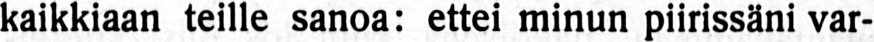kaikkiaan teille sanoa: ettei minun piirissäni var-
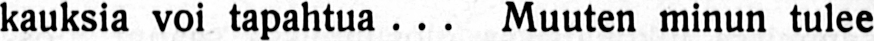kauksia voi tapahtua . . . Muuten minun tulee
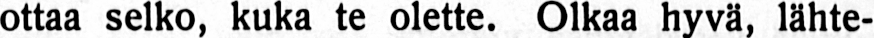ottaa selko, kuka te olette. Olkaa hyvä, lähte-
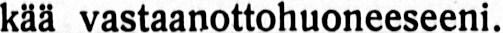kää vastaanottohuoneeseeni.
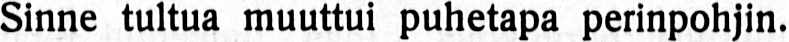Sinne tultua muuttui puhetapa perinpohjin.
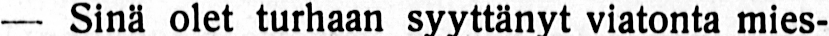— Sinä olet turhaan syyttänyt viatonta mies-
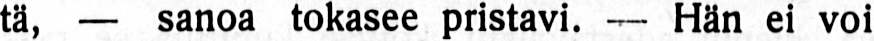tä, — sanoa tokasee pristavi. — Hän ei voi
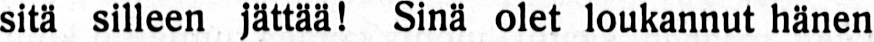sitä silleen jättää! Sinä olet loukannut hänen
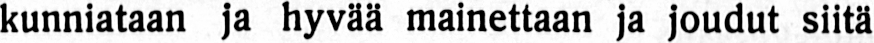kunniataan ja hyvää mainettaan ja joudut siitä
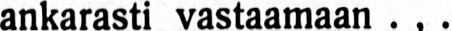ankarasti vastaamaan . , .
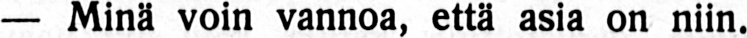— Minä voin vannoa, että asia on niin.
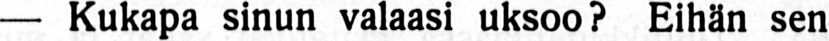— Kukapa sinun valaasi uksoo? Eihän sen
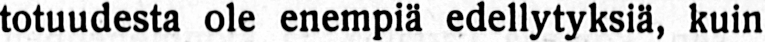totuudesta ole enempiä edellytyksiä, kuin syyt-
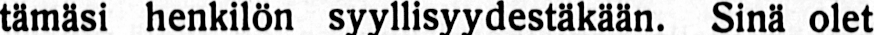tämäsi henkilön syyllisyydestäkään. Sinä olet
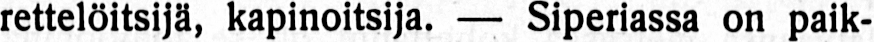rettelöitsijä, kapinoitsija. — Siperiassa on paik-
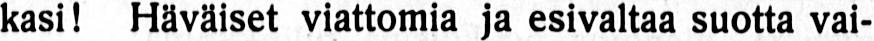kasi! Häväiset viattomia ja esivaltaa suotta vai-
